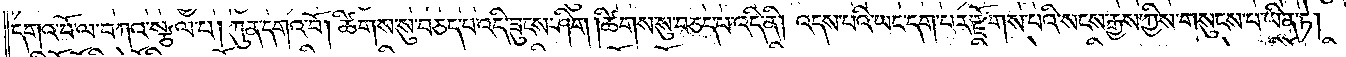དགའ་བོ་ལ་བཀའ་སྩལ་པ། ཀུན་དགའ་བོ། ཚིགས་སུ་བཅད་པ་འདི་ཟུངས་ཤིག །ཚིགས་སུ་བཅད་པ་འདི་ནི། འདས་པའི་ཡང་དག་པར་རྫོགས་པའི་སངས་རྒྱས་ཀྱིས་གསུངས་པ་ཡིན་ཏེ།
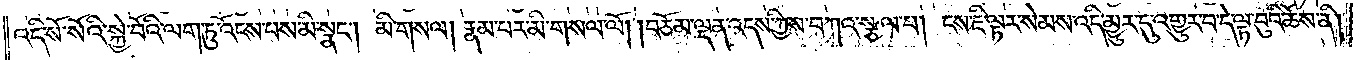འདི་སོ་སོའི་སྐྱེ་བོའི་ལག་ཏུ་འོངས་པས་མི་སྣང༌། མི་གསལ། རྣམ་པར་མི་གསལ་ལོ། །བཅོམ་ལྡན་འདས་ཀྱིས་བཀའ་སྩལ་པ། ངས་ཇི་ལྟར་སེམས་འདི་མྱུར་དུ་འགྱུར་བ་དེ་ལྟ་བུའི་ཆོས་ནི།
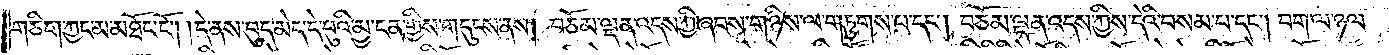གཅིག་ཀྱང་མ་མཐོང་ངོ༌། །དེ་ནས་བུད་མེད་དེ་བུའི་མྱ་ངན་གྱིས་གདུངས་ནས། བཅོམ་ལྡན་འདས་ཀྱི་ཞབས་གཉིས་ལ་གཏུགས་པ་དང༌། བཅོམ་ལྡན་འདས་ཀྱིས་དེའི་བསམ་པ་དང༌། བག་ལ་ཉལ་
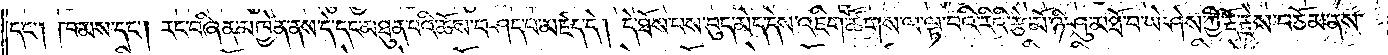དང༌། ཁམས་དང༌། རང་བཞིན་མཁྱེན་ནས་དེ་དང་མཐུན་པའི་ཆོས་བཤད་པ་མཛད་དེ། དེ་ཐོས་པས་བུད་མེད་དེས་འཇིག་ཚོགས་ལ་ལྟ་བའི་རིའི་རྩེ་མོ་ཉི་ཤུ་མཐོ་བ་ཡེ་ཤེས་ཀྱི་རྡོ་རྗེས་བཅོམ་ནས་
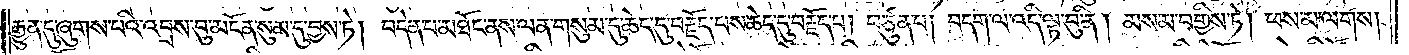རྒྱུན་དུ་ཞུགས་པའི་འབྲས་བུ་མངོན་སུམ་དུ་བྱས་ཏེ། བདེན་པ་མཐོང་ནས་ལན་གསུམ་དུ་ཆེད་དུ་བརྗོད་པས་ཆེད་དུ་བརྗོད་པ། བཙུན་པ། བདག་ལ་འདི་ལྟ་བུ་ནི། མས་མ་བགྱིས་ཏེ། ཕས་མ་ལགས།
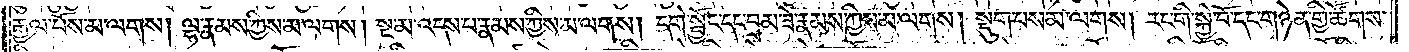རྒྱལ་པོས་མ་ལགས། ལྷ་རྣམས་ཀྱིས་མ་ལགས། སྔ་མ་འདས་པ་རྣམས་ཀྱིས་མ་ལགས། དགེ་སྦྱོང་དང་བྲམ་ཟེ་རྣམས་ཀྱིས་མ་ལགས། སྡུག་པས་མ་ལགས། རང་གི་སྐྱེ་བོ་དང་གཉེན་གྱི་ཚོགས་
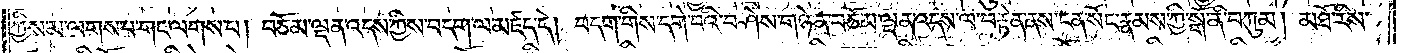ཀྱིས་མ་ལགས་པ་གང་ལགས་པ། བཅོམ་ལྡན་འདས་ཀྱིས་བདག་ལ་མཛད་དེ། བདག་གིས་དགེ་བའི་བཤེས་གཉེན་བཅོམ་ལྡན་འདས་ལ་བརྟེན་ནས་ངན་སོང་རྣམས་ཀྱི་སྒོ་ནི་བཀུམ། མཐོ་རིས་
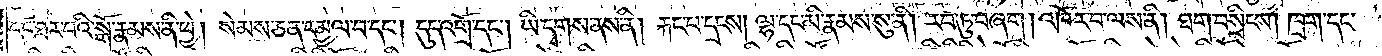དང་ཐར་པའི་སྒོ་རྣམས་ནི་ཕྱེ། སེམས་ཅན་དམྱལ་བ་དང༌། དུད་འགྲོ་དང༌། ཡི་དྭགས་ནས་ནི། རྐང་པ་དྲངས། ལྷ་དང་མི་རྣམས་སུ་ནི། རབ་ཏུ་བཞག །འཁོར་བ་ལས་ནི། ཐག་བསྲིངས། ཁྲག་དང་
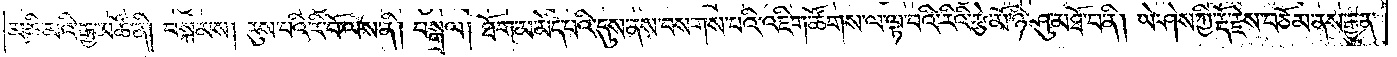མཆི་མའི་རྒྱ་མཚོ་ནི། བསྐམས། རུས་པའི་རི་བོ་ལས་ནི། བསྒྲལ། ཐོག་མ་མེད་པའི་དུས་ནས་བསགས་པའི་འཇིག་ཚོགས་ལ་ལྟ་བའི་རིའི་རྩེ་མོ་ཉི་ཤུ་མཐོ་བ་ནི། ཡེ་ཤེས་ཀྱི་རྡོ་རྗེས་བཅོམ་ནས་རྒྱུན་
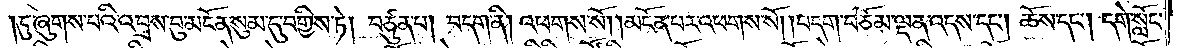།དུ་ཞུགས་པའི་འབྲས་བུ་མངོན་སུམ་དུ་བགྱིས་ཏེ། བཙུན་པ། བདག་ནི། འཕགས་སོ། །མངོན་པར་འཕགས་སོ། །བདག་བཅོམ་ལྡན་འདས་དང༌། ཆོས་དང༌། དགེ་སློང་
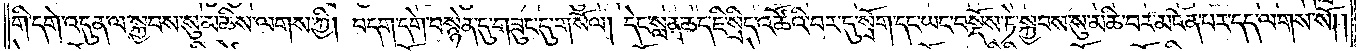གི་དགེ་འདུན་ལ་སྐྱབས་སུ་མཆིས་ལགས་ཀྱི། བདག་དགེ་བསྙེན་དུ་གཟུང་དུ་གསོལ། དེང་སླན་ཆད་ཇི་སྲིད་འཚོའི་བར་དུ་སྲོག་དང་ཡང་བསྡོས་ཏེ་སྐྱབས་སུ་མཆི་བར་མངོན་པར་དད་ལགས་སོ། །
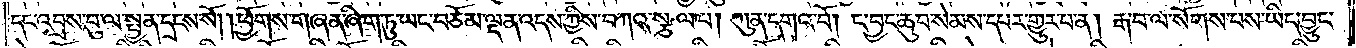དང་འབྲས་བུ་ལ་སྤྱན་དྲངས་སོ། །ཕྱོགས་གཞན་ཞིག་ཏུ་ཡང་བཅོམ་ལྡན་འདས་ཀྱིས་བཀའ་སྩལ་པ། ཀུན་དགའ་བོ། ང་བྱང་ཆུབ་སེམས་དཔར་གྱུར་པ་ན། རྒ་བ་ལ་སོགས་པས་ཡིད་བྱུང་
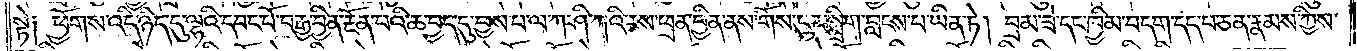སྟེ༑ ཕྱོགས་འདི་ཉིད་དུ་ལྷའི་དབང་པོ་བརྒྱ་བྱིན་རྔོན་པའི་ཆ་བྱད་དུ་བྱས་པ་ལ་ཀ་ཤི་ཀའི་རས་ཕྲན་བྱིན་ནས་གོས་ངུར་སྨྲིག་བླངས་པ་ཡིན་ཏེ། བྲམ་ཟེ་དང་ཁྱིམ་བདག་དད་པ་ཅན་རྣམས་ཀྱིས་
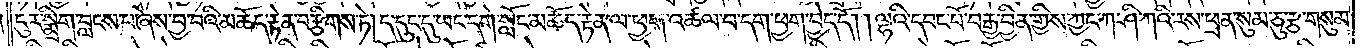ངུར་སྨྲིག་བླངས་པ་ཞེས་བྱ་བའི་མཆོད་རྟེན་བརྩིགས་ཏེ། ད་དུང་དུ་ཡང་དགེ་སློང་མཆོད་རྟེན་ལ་ཕྱག་འཚལ་བ་དག་ཕྱག་བྱེད་དོ། །ལྷའི་དབང་པོ་བརྒྱ་བྱིན་གྱིས་ཀྱང་ཀ་ཤི་ཀའི་རས་ཕྲན་སུམ་ཅུ་རྩ་གསུམ་
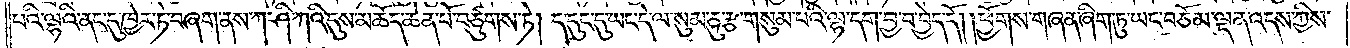པའི་ལྷའི་ནང་དུ་ཁྱེར་ཏེ་བཞག་ནས་ཀ་ཤི་ཀའི་དུས་མཆོད་ཆེན་པོ་བཙུགས་ཏེ། ད་དུང་དུ་ཡང་དེ་ལ་སུམ་ཅུ་རྩ་གསུམ་པའི་ལྷ་དག་བྱ་བ་བྱེད་དོ། །ཕྱོགས་གཞན་ཞིག་ཏུ་ཡང་བཅོམ་ལྡན་འདས་ཀྱིས་
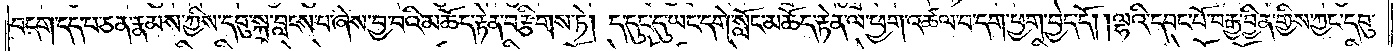བདག་དད་པ་ཅན་རྣམས་ཀྱིས་དབུ་སྐྲ་བླངས་པ་ཞེས་བྱ་བའི་མཆོད་རྟེན་བརྩིགས་ཏེ། ད་དུང་དུ་ཡང་དགེ་སློང་མཆོད་རྟེན་ལ་ཕྱག་འཚལ་བ་དག་ཕྱག་བྱེད་དོ། །ལྷའི་དབང་པོ་བརྒྱ་བྱིན་གྱིས་ཀྱང་དབུ་
